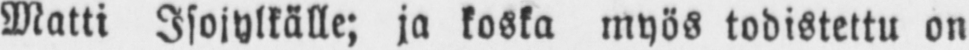Matti Isojylkälle; ja koska myös todistettu on
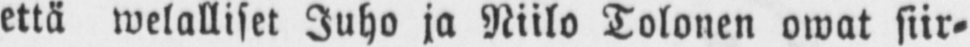että welalliset Juho ja Niilo Tolonen owat siir-
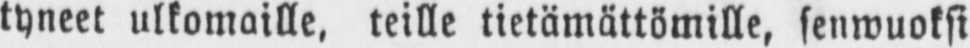tyneet ulkomaille, teille tietämättömille, senwuoksi
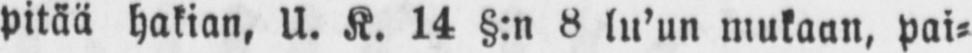pitää hakian, U. K. 14 §:n 8 lu'un mukaan, pai-
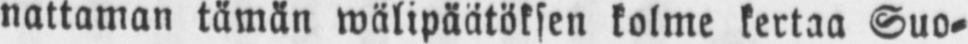nattaman tämän wälipäätöksen kolme kertaa Suo-
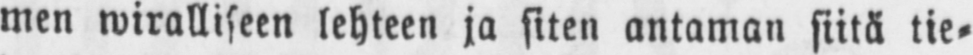men wiralliseen lehteen ja siten antaman siitä tie-
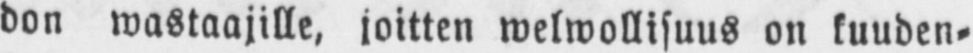don wastaajille, joitten welwollisuus on kuuden-
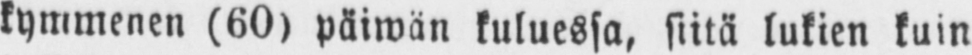kymmenen (60) päiwän kuluessa, siitä lukien kuin
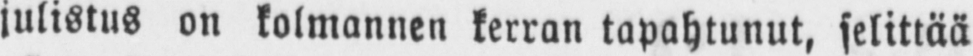julistus on kolmannen kerran tapahtunut, selittää
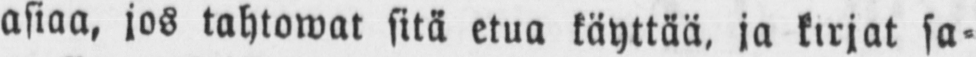asiaa, jos tahtowat sitä etua käyttää, ja kirjat sa-
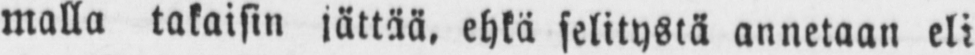malla takaisin jättää, ehkä selitystä annetaan eli
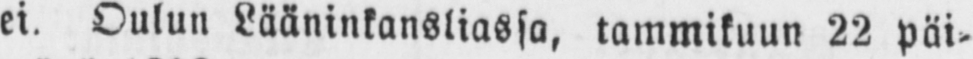ei. Oulun Lääninkansliassa, tammikuun 22 päi-
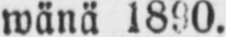wänä 1890.
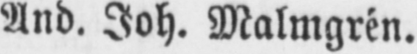And. Joh. Malmgrén.
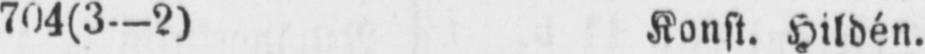704(3-2) Konst. Hildén.
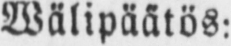Wälipäätös:
